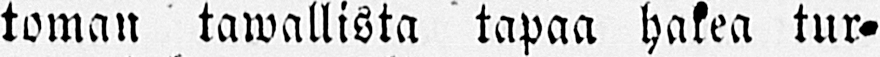toman tawallista tapaa hakea tur-
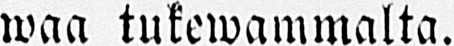waa tukewammalta.
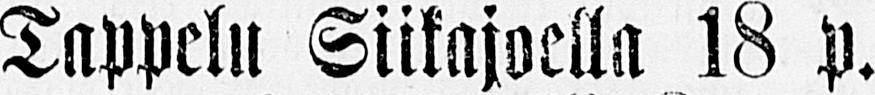Tappelu Siikajoella 18 p.
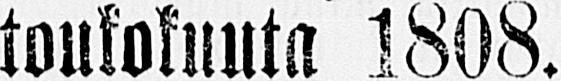toukokuuta 1808.
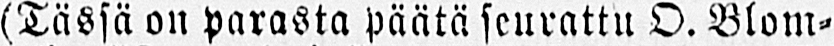(Tässä on parasta päätä seurattu O. Blom-
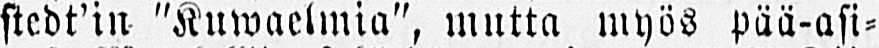stedt'in "Kuwaelmia", mutta myös pää-asi-
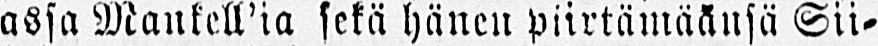assa Mankell'ia sekä hänen piirtämääusä Sii-
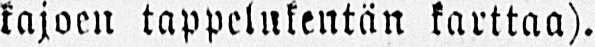kajoen tappelukentän karttaa).
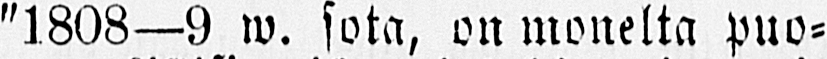"1808—9 w. sota, on monelta puo-
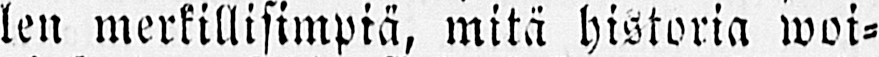len merkillisimpiä, mitä historia woi-
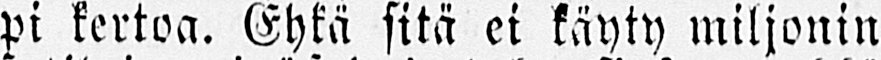pi kertoa. Ehkä sitä ei käyty miljonin
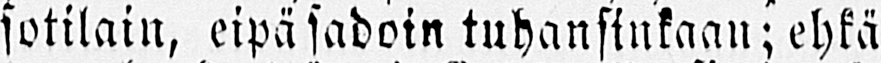sotilain, eipä sadoin tuhansinkaan; ehkä
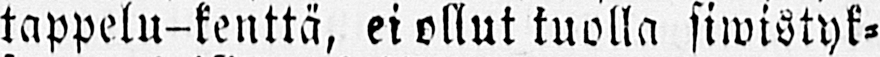tappelu-kenttä, ei ollut tuolla siwistyk-
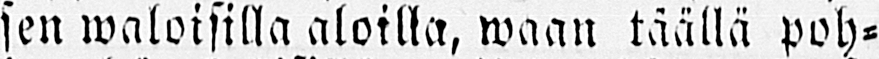sen waloisilla aloilla, waan täällä poh-
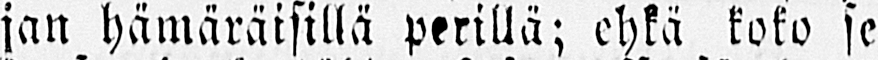jan hämäräisillä perillä; ehkä koko se
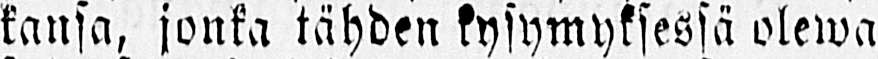kansa, jonka tähden kysymyksessä olewa
